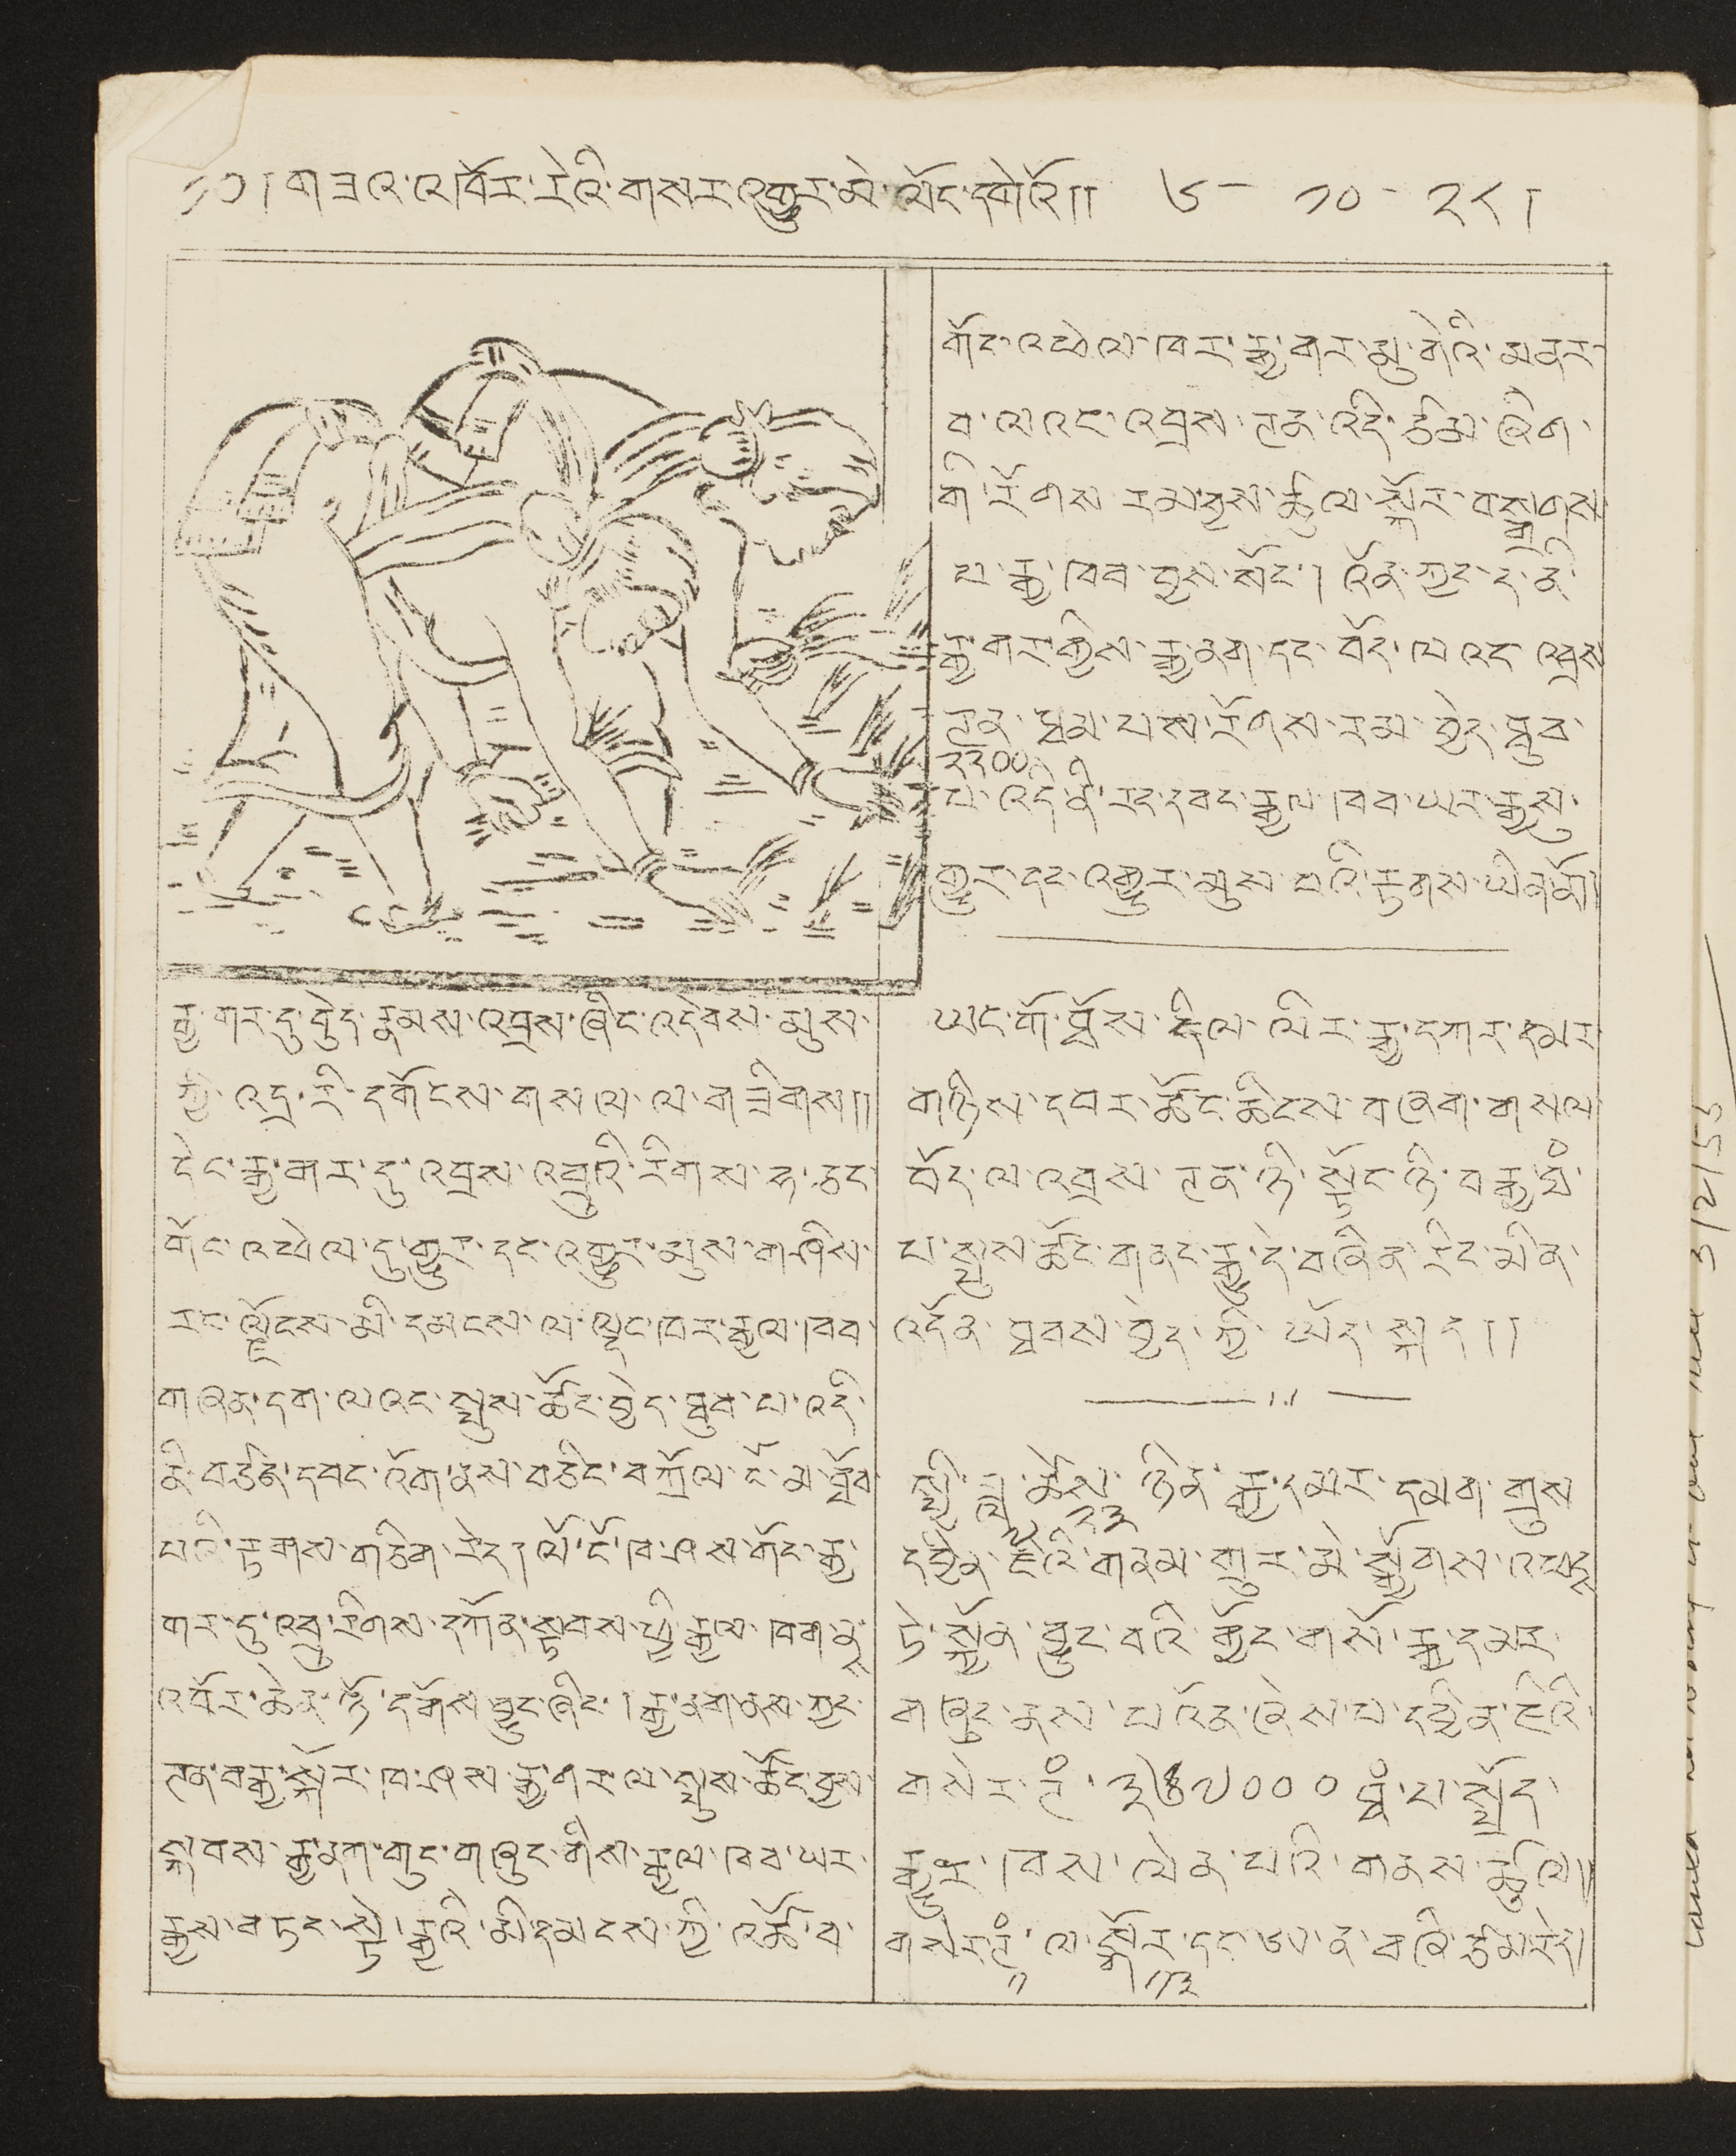༡༠།གཟའ་འཁོར་རེའི་གསར་འགྱུར་མེ་ལོང་དགེའོ།། ༦-༡༠-༢༨ །
རྒྱ་གར་དུ་བེུད་རྣམས་འབྲས་ཞིང་འདེབས་མུས་
ཀྱི་འདྲ་རི་དགོས་གསལ་ལ་གཟིགས།།
དེང་རྒྱ་གར་དུ་འབྲས་འབྲུའི་རིགས་ཧ་ཅང་
གོང་འཕེལ་དུ་གྱུར་དང་འགྱུར་མུས་གཤིས་
རང་ལྗོངས་མི་དམངས་ལ་ལྡང་ཁར་རྒྱལ་ཁབ་
གཞན་དག་ལའང་སྤུས་ཚོང་བྱེད་ཐུབ་པ་འདི་
ནི་བཙན་དབང་འོག་ནས་བཅིང་བཀྲོལ་ངོ་མ་ཐོབ་
པའི་རྟགས་གཅིག་རེད། ལོ་ངོ་ཁ་ཤས་གོང་རྒྱ་
གར་དུ་འབྲུ་རིགས་དཀོན་སྟབས་ཕྱི་རྒྱལ་ཁག་ནྶ་
འབོར་ཆེན་ཉོ་དགོས་བྱུང་ཞིང་། རྒྱ་ནག་ནས་ཀྱང་
ཊན་བརྒྱ་སྐོར་ཁ་ཤས་རྒྱ་གར་ལ་སྤུས་ཚོང་བྱས་
སྐབས་རྒྱ་ནག་གུང་གཞུང་གིས་རྒྱལ་ཁབ་ཡར་
རྒྱས་བཏང་སྟེ་རྒྱའི་མི་དམངས་ཀྱི་འཚོ་བ་
གོང་འཕེལ་ཁར་རྒྱ་གར་མུ་གེའི་མནར་
བ་ལའང་འབྲས་ཊན་འདི་ཙམ་ཞིག་
གི་རོགས་རམ་བྱས་ཚུལ་སྐོར་བསྒྲགས
པ་རྒྱ་ཁབ་བྱས་སོང་། འོན་ཀྱང་ད་ནི་
རྒྱ་གར་གྱིས་རྒྱ་ནག་དང་བོད་ལའང་འབྲས
ཊན་
༢༢༠༠
ཐམ་པས་རོགས་རམ་བྱེད་ཐུབ་
པ་འདི་ནི་རང་དབང་རྒྱལ་ཁབ་ཡར་རྒྱསུ་
གྱུར་དང་འགྱུར་མུས་བའི་རྟགས་ཡིན་ནོ།།
ཡང་གོ་ཐོས་དིལ་ལིར་རྒྱ་དཀར་དམར་
གཉིས་དབང་ཚོང་ཆིངས་བཞག་གསལ་
བོད་ལ་འབྲས་ཊན་ཉི་སྟོང་ཉི་བརྒྱ་ཐཾ་
པ་སྤུས་ཚོང་གནང་རྒྱ་དེ་བཞིན་རིང་མིན་
འདོན་ཐབས་བྱེད་ཀྱི་ཡོད་སྐད།།
སྤྱི་ཟླ་
༧
ཚེས་
༢༣
ཉིན་རྒྱ་དམར་དམག་གྲུས
དབྱིན་ཇིའི་གནམ་གྲུར་མེ་སྒྱོགས་འཕངྶ
ཏེ་སྐྱོན་བྱུང་བའི་གྱོང་གསོ་རྒྱ་དམར་
གཞུང་ནས་པའོམ ཞེས་པ་དབྱིན་ཇིའི་
གསེར་ཊཾ་ ༣༦༧༠༠༠ ཐཾ་པ་སྤྲོད་
རྒྱུར་ཁས་ལེན་པའི་གནས་ཚུལ།།
གསེར་ཊཾ་
༡
ལ་སྒོར་
༡༣
དང་ཨ་ན་བཞི་ཙམ་རེད།
3/2/55
